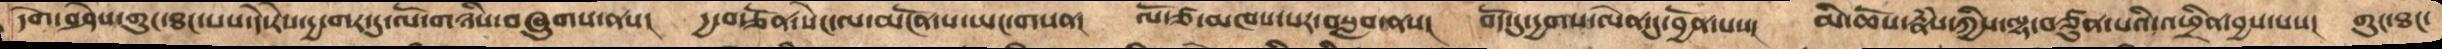དགེ་བཤེས་གུང་ཐང་པས་དེ་རེས་དྱ་གར་དུ་ལོ་གཉིས་བཞུགས་ནས།  དྱ་བརྩོན་སེང་ལ་མངོན་པ་ཡང་གསན།  ལོ་ཙ་མཁས་པར་བསླབ་ནས།  བོད་དུ་དྱགས་ལེན་དུ་བྱོན་པས།  མི་ཆོས་རྣཾས་ཀྱིས་ལྷ་བཙུན་པའི་འཕྲིན་བྱས་པས།  གུང་ཐང་
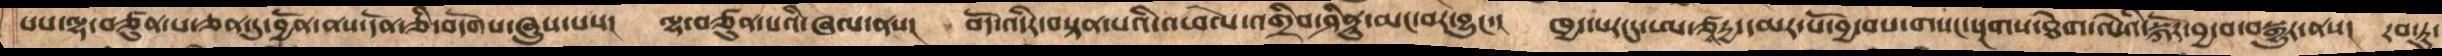པས་ལྷ་བཙུན་པ་ཅན་དུ་བྱོན་ནས་དོན་ཅི་བདོགས་ཞུས་པས།   ལྷ་བཙུན་པའི་ཞལ་ནས།  བོད་འདིར་བསྟན་པའི་འཕེལ་འགྲིབ་ཤིནྟུ་མང་བར་བྱུང་།   ཁྱད་པར་དུ་ཨ་ཙཱརྱ་དམར་པོ་བྱ་བས་གསང་སྔགས་ཐེག་ལེའི་སྐོར་བྱ་བ་བསྒྱུར་ནས།  རབ་ཏུ་
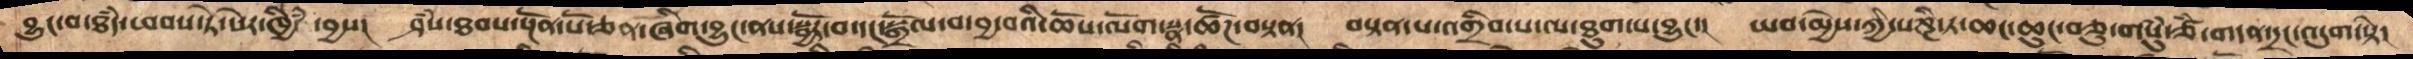བྱུང་བ་ཐཾད་ཕབས་ཏེ་སེར་ཁྱིཾ་བྱས།   ཤཾས་ཐབས་སྔོན་པོ་ཅན་ཞིག་བྱུང་ནས་སྦྱོར་བ་དང་སྒྲོལ་བ་བྱ་བའི་ཆོས་ལོག་སྣ་ཚོཌ་བསྟན།   བསྟན་པ་འགྲིབ་པ་ལ་ཐུག་པ་བྱུང་།   ཡབ་མྱེས་ཀྱི་པཎྜི་ཏ་ཆང་ཆུང་བཅུ་གསུཾ་ཙཾ་གདན་དྲང་འདུག་སྟེ་
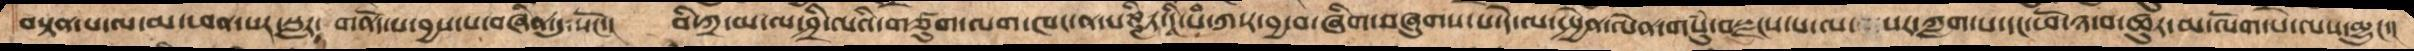བསྟན་པ་ལ་མ་ཕན་པར་སླར་ གནོད་པ་བྱས་པ་བཞིན་དུ་སོང་།   བི་ཀྲ་མ་ལ་ཤྲི་ལའི་གཙུག་ལག་ཁང་ན་པཎྜི་ཏ་དཱི་པཾ་ཀ་ར་བྱ་བ་ཞིག་བཞུགས་པ་དེ་ལ་སྤྱན་ལེན་གསུཾ་བསྫངས་པ་ལ་  སར་ཀླག་པ་དང་ཕོ་ཉ་བ་ཚུར་མ་ལོག་པ་ལས་མྱུང་།
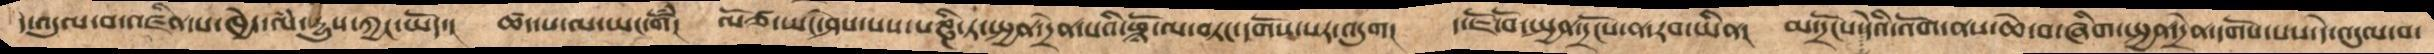ད་འདུལ་བ་འཛིན་པ་ཁྱེད་ལཾ་རྒྱུས་ཀྱང་ཡོད། ཚད་པ་ལ་ཡང་གོཾ། ལོཙ་ཡང་ཤེས་པས་པཎྜི་ཏ་སྤྱན་འདྲེན་པའི་ཕྙོ་ལ་བཏང་དགོས་པར་འདུག།  ད་ཇོ་བོ་སྤྱན་དྲོངས་ན་རབ་ཡིན། མ་དྲོངས་དེའི་འོག་ནས་ཆེ་བ་ཞིག་སྤྱན་དྲེན་དགོས་པས་དེ་འདུལ་བ་
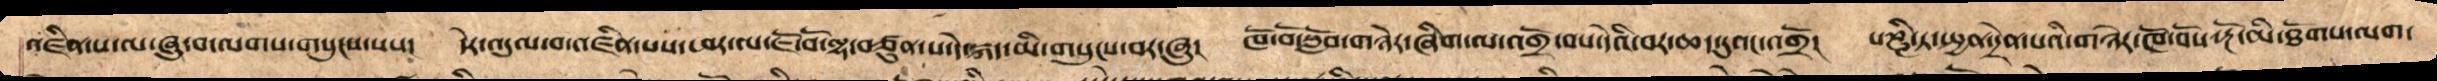འཛིན་པ་ལ་ཞུ་བ་ལགས་གསུངས་པས།   དེར་འདུལ་བ་འཛིན་པས་ཕར་ལ་ཇོ་བོ་ལྷ་བཙུན་པ་ལ་དེ་སྐད་མི་གསུངས་བར་ཞུ།   ཁོ་བོ་སློབ་གཉེར་ཞིག་ལ་འགྲོ་བས་དེའི་བར་ཆད་དུའང་འགྲོ།   པཎྜི་ཏ་སྤྱན་འདྲེན་པའི་གཉེར་ཁོ་བོས་རྔོ་མི་ཐོགས་ལག་
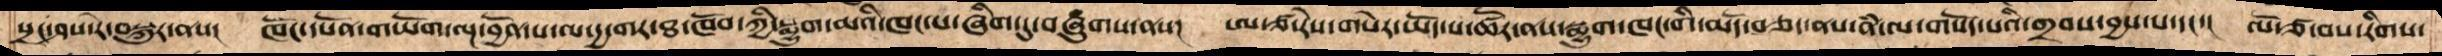སྲང་ཤས་རེ་བསྐུར་ནས།   ཁོང་དཔོན་གཡོག་ལྔ་བྱོན་པ་ལ་དྱ་གར་ཐ་ཁོབ་ཀྱི་སྨྱུག་མའི་ཁང་པ་ཞིག་དུ་བཞུགས་ནས།  ཨ་ཙ་རེས་གསེར་ཡོད་པ་ཚོར་ནས་སྨྱུག་ཁང་གི་མདོ་བཅད་ནས་ནཾ་ལ་གསོད་པའི་གྲབས་བྱས་པ་དང་།  ལོ་ཙ་བས་རིགས་
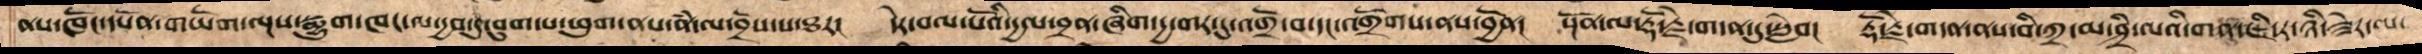ནས་ཁོང་དཔོན་གཡོག་ལྔས་སྨྱུག་ཁང་ལ་དྱབ་དུ་བུག་པ་ཕུག་ནས་ནཾ་ལ་བྲོས་པ་ཐར།   དེར་བལ་པོའི་དྱལ་ཕྲན་ཞིག་དྱ་གར་དུ་འགྲོ་བ་དང་འགྲོགས་ནས་བྱོན།   སྔོན་ལ་རྡོ་རྗེ་གདན་དུ་སླེབ།   རྡོ་རྗེ་གདན་ནས་བི་ཀྲ་མ་ཤྲི་ལའི་གན་ཇི་ར་ཉི་ཟེར་ལ་
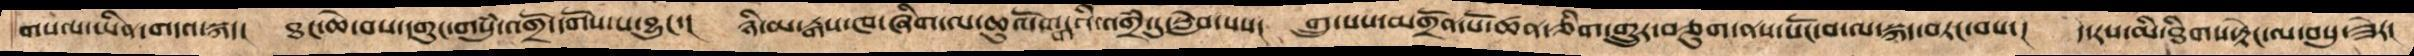གསལ་ཡིན་གདའ་སྐད།   ཐང་ཆེ་བས་དགུང་གསུཾ་འགྲོ་དགོས་པ་བྱུང་།   ཉི་མ་རྒས་ཁ་ཞིག་ལ་ཆུ་མོ་གངྒཱའི་འགྲཾ་དུ་སླེབ་པས།   གྲུ་པས་མགྲོན་པོ་ཚན་ཅིག་གྲུར་བཅུག་ནས་སོང་བ་ལ་སྐད་བཏང་པས།   ད་རས་མི་ཐེགས་རྟེང་ལ་བསུ་ཟེར།
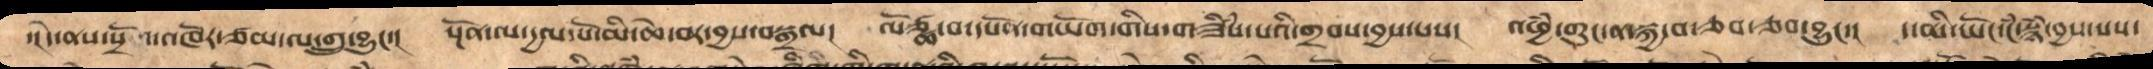་། དེ་ནས་སྲོལ་འཁོར་ཙམ་ན་གྲུ་བྱུང་།   སྔོན་ལ་དྱལ་པོ་མི་ཆེ་བར་བྱས་བསྒྲལ།  ལོཙྪ་བ་དཔོན་གཡོག་གིས་གཟིཾས་པའི་གྲབས་བྱས་པས།  འཕྱཾ་གུང་ན་སྐྱ་བ་ཅབ་ཅབ་བྱུང་།  ད་མི་ཡོང་ངཾ་སྙཾ་བྱས་པས་
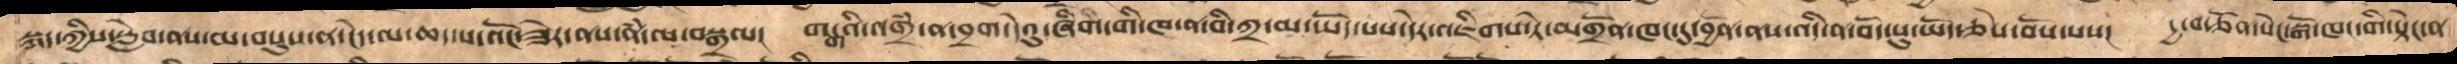སྐད་ཀྱིས་སླེབ་ནས་མ་བསུས་ན་ངེད་ལ་ཆད་པ་འོང་ཟེར་ནས་ནཾ་ལ་བསྒྲལ།   གངྒའི་འགྲཾ་ན་བྲག་དེའུ་ཞིག་གི་ཁ་ན་བི་ཀྲ་མ་ཡོད་པས་དེར་འཇིགས་ཏེ་འགྲོན་ཁང་དུ་བྱོན་ནས་འདི་ན་བོད་སུ་ཡོད་ཅེས་བོས་པས། དྱ་བརྩོན་སེང་སྒོ་ཁང་གི་སྟེང་ན
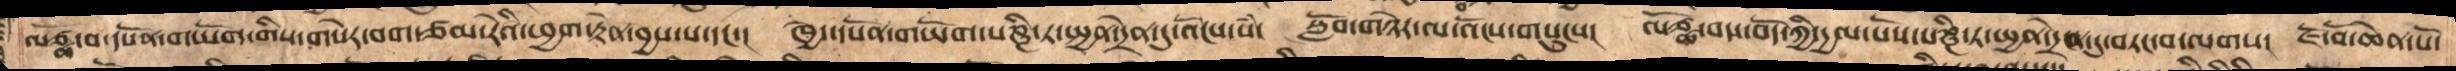ལོཙྪ་བ་དཔོན་གཡོག་གིས་གསེར་བག་ཙམ་རེའི་ཕྱག་རྟེན་བྱས་པ་དང་།   ཁྱེད་དཔོན་གཡོག་པཎྜི་ཏ་སྤྱན་དྲེན་དུ་འོངས་སཾ།   སློབ་གཉེར་ལ་འོངས་གསུངས།   ལོཙྪ་བས་བོད་ཀྱི་དྱལ་པོས་པཎྜི་ཏ་སྤྱན་དྲེན་དུ་བཏང་བ་ལགས།  ཇོ་བོ་ཆེན་པོ་
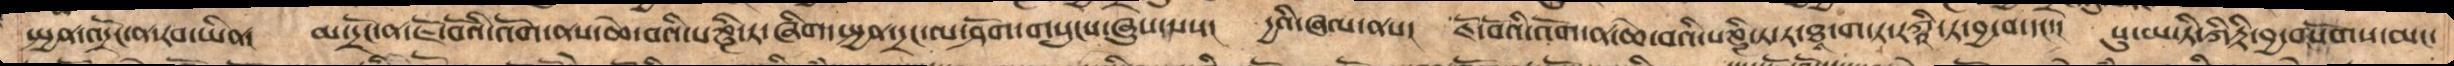སྤྱན་འདྲོང་ན་རབ་ཡིན།    མ་དྲོང་ན་ཇོ་བོའི་འོག་ནས་ཆེ་བའི་པཎྜི་ཏ་ཞིག་སྤྱན་དྲང་ལ་ཤོག་གསུངས་ཞུས་པས།   དྱའི་ཞལ་ནས།   ཇོ་བོའི་འོག་ན་ཆེ་བའི་པཎྜི་ཏ་ཏ་ཐཱ་ག་ཏ་རཀྵི་ཏ་བྱ་བ་དང་།  སུ་མ་ཏི་ཀིརྟི་བྱ་བསོགས་པ་མང་
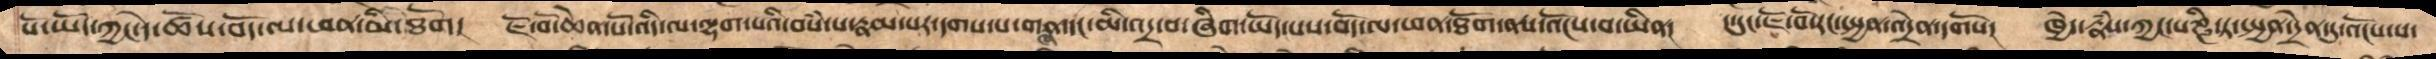པོ་ཡོད་ཀྱང་དེ་ཚོས་བོད་ལ་ཕན་མི་ཐོགས།  ཇོ་བོ་ཆེན་པོ་འདི་ལ་ལྷག་པའི་བསཾ་པ་རྣམ་པར་དག་པ་གཞན་དང་མི་འདྲ་བ་ཞིག་ཡོད་པས་བོད་ལ་ཕན་ཐོགས་ནས་འོངས་བ་ཡིན།  ད་དུང་ཇོ་བོ་རང་སྤྱན་འདྲེན་དགོས།   ཁྱེད་རྣཾས་ཀྱང་པཎྜི་ཏ་སྤྱན་དྲེན་དུ་འོངས་པ་
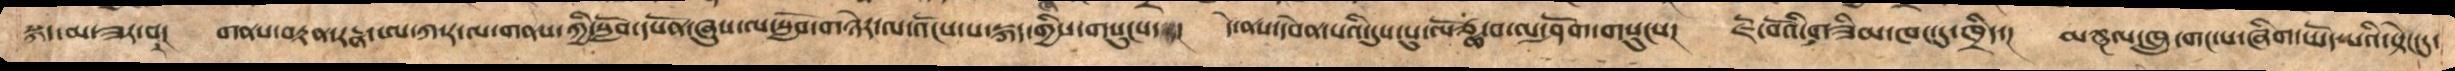སྐད་མ་ཟེར་བར།   གནས་བརྟན་རདྣ་ཨ་ཀ་ར་ལ་གནས་ཀྱི་སློབ་དཔོན་ཞུས་ལ་སློབ་གཉེར་ལ་འོངས་པ་སྐད་ཀྱིས་གསུངས།   དེ་ནས་དབེན་པའི་དུས་སུ་ལོཙྪ་བ་ལ་ཤོག་གསུངས།    ཇོ་བོའི་གཟིམ་ཁང་དུ་ཁྲིད།   མཎྜལ་ཁྲུ་གང་པ་ཞིག་ཡོད་པའི་སྟེང་དུ་
